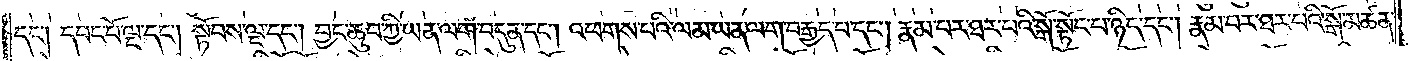དང༌། དབང་པོ་ལྔ་དང༌། སྟོབས་ལྔ་དང༌། བྱང་ཆུབ་ཀྱི་ཡན་ལག་བདུན་དང༌། འཕགས་པའི་ལམ་ཡན་ལག་བརྒྱད་པ་དང༌། རྣམ་པར་ཐར་པའི་སྒོ་སྟོང་པ་ཉིད་དང༌། རྣམ་པར་ཐར་པའི་སྒོ་མཚན་
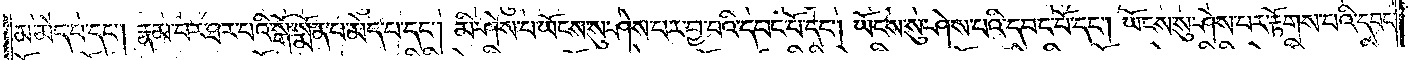མ་མེད་པ་དང༌། རྣམ་པར་ཐར་པའི་སྒོ་སྨོན་པ་མེད་པ་དང༌། མི་ཤེས་པ་ཡོངས་སུ་ཤེས་པར་བྱ་བའི་དབང་པོ་དང༌། ཡོངས་སུ་ཤེས་པའི་དབང་པོ་དང༌། ཡོངས་སུ་ཤེས་པར་རྟོགས་པའི་དབང་
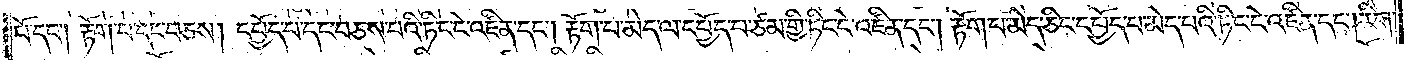པོ་དང༌། རྟོག་པ་དང་བཅས། དཔྱོད་པ་དང་བཅས་པའི་ཏིང་ངེ་འཛིན་དང༌། རྟོག་པ་མེད་ལ་དཔྱོད་པ་ཙམ་གྱི་ཏིང་ངེ་འཛིན་དང༌། རྟོག་པ་མེད་ཅིང་དཔྱོད་པ་མེད་པའི་ཏིང་ངེ་འཛིན་དང༌། རིག་
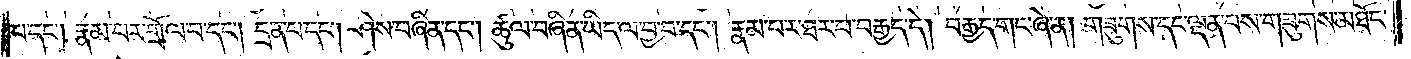པ་དང༌། རྣམ་པར་གྲོལ་བ་དང༌། དྲན་པ་དང༌། ཤེས་བཞིན་དང༌། ཚུལ་བཞིན་ཡིད་ལ་བྱ་བ་དང༌། རྣམ་པར་ཐར་པ་བརྒྱད་དེ། བརྒྱད་གང་ཞེ་ན། གཟུགས་དང་ལྡན་པས་གཟུགས་མཐོང་
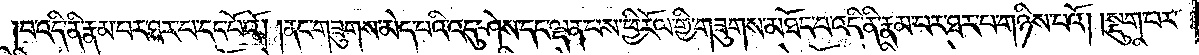བ་འདི་ནི་རྣམ་པར་ཐར་པ་དང་པོའོ། །ནང་གཟུགས་མེད་པའི་འདུ་ཤེས་དང་ལྡན་པས་ཕྱི་རོལ་གྱི་གཟུགས་མཐོང་བ་འདི་ནི་རྣམ་པར་ཐར་པ་གཉིས་པའོ། །སྡུག་པར་
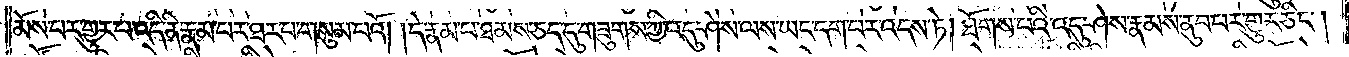མོས་པར་གྱུར་པ་འདི་ནི་རྣམ་པར་ཐར་པ་གསུམ་པའོ། །དེ་རྣམ་པ་ཐམས་ཅད་དུ་གཟུགས་ཀྱི་འདུ་ཤེས་ཀྱང་ཡང་དག་པར་འདས་ཏེ། ཐོགས་པའི་འདུ་ཤེས་རྣམས་ནུབ་པར་གྱུར་ཅིང༌།
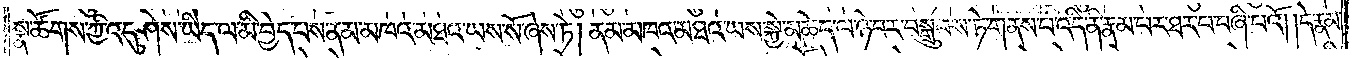སྣ་ཚོགས་ཀྱི་འདུ་ཤེས་ཡིད་ལ་མི་བྱེད་པས་ནམ་མཁའ་མཐའ་ཡས་སོ་ཞེས་ཏེ། ནམ་མཁའ་མཐའ་ཡས་སྐྱེ་མཆེད་ལ་ཉེ་བར་བསྒྲུབས་ཏེ་གནས་པ་འདི་ནི་རྣམ་པར་ཐར་པ་བཞི་པའོ། །དེ་རྣམ་
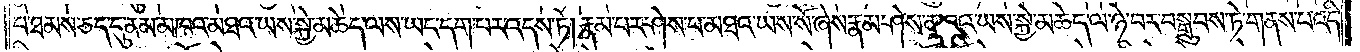པ་ཐམས་ཅད་དུ་ནམ་མཁའ་མཐའ་ཡས་སྐྱེ་མཆེད་ལས་ཡང་དག་པར་འདས་ཏེ། རྣམ་པར་ཤེས་པ་མཐའ་ཡས་སོ་ཞེས་རྣམ་ཤེས་མཐའ་ཡས་སྐྱེ་མཆེད་ལ་ཉེ་བར་བསྒྲུབས་ཏེ་གནས་པ་འདི་
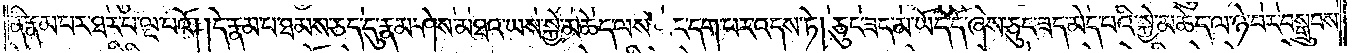ནི་རྣམ་པར་ཐར་པ་ལྔ་པའོ། །དེ་རྣམ་པ་ཐམས་ཅད་དུ་རྣམ་ཤེས་མཐའ་ཡས་སྐྱེ་མཆེད་ལས་ཡང་དག་པར་འདས་ཏེ། ཅུང་ཟད་མ་ཡོད་དོ་ཞེས་ཅུང་ཟད་མེད་པའི་སྐྱེ་མཆེད་ལ་ཉེ་བར་བསྒྲུབས་
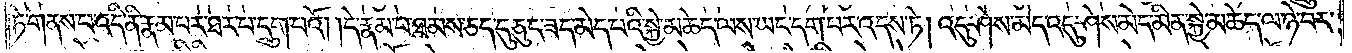ཏེ་གནས་པ་འདི་ནི་རྣམ་པར་ཐར་པ་དྲུག་པའོ། །དེ་རྣམ་པ་ཐམས་ཅད་དུ་ཅུང་ཟད་མེད་པའི་སྐྱེ་མཆེད་ལས་ཡང་དག་པར་འདས་ཏེ། འདུ་ཤེས་མེད་འདུ་ཤེས་མེད་མིན་སྐྱེ་མཆེད་ལ་ཉེ་བར་
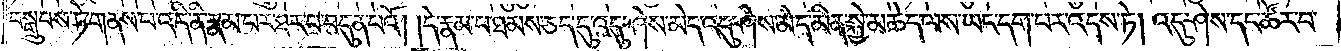བསྒྲུབས་ཏེ་གནས་པ་འདི་ནི་རྣམ་པར་ཐར་པ་བདུན་པའོ། །དེ་རྣམ་པ་ཐམས་ཅད་འདུ་ཤེས་མེད་འདུ་ཤེས་མེད་མིན་སྐྱེ་མཆེད་ལས་ཡང་དག་པར་འདས་ཏེ། འདུ་ཤེས་དང་ཚོར་བ་
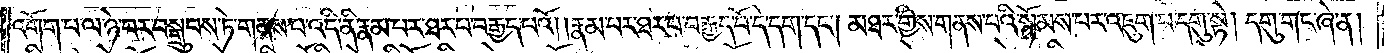འགོག་པ་ལ་ཉེ་བར་བསྒྲུབས་ཏེ་གནས་པ་འདི་ནི་རྣམ་པར་ཐར་པ་བརྒྱད་པའོ། །རྣམ་པར་ཐར་པ་བརྒྱད་པོ་དེ་དག་དང༌། མཐར་གྱིས་གནས་པའི་སྙོམས་པར་འཇུག་པ་དགུ་སྟེ། དགུ་གང་ཞེ་ན།
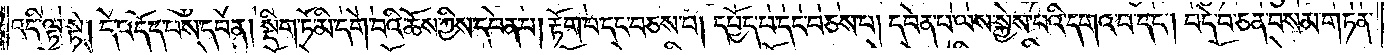འདི་ལྟ་སྟེ། དེ་འདོད་པས་དབེན། སྡིག་ཏོ་མི་དགེ་བའི་ཆོས་ཀྱིས་དབེན་པ། རྟོག་པ་དང་བཅས་པ། དཔྱོད་པ་དང་བཅས་པ། དབེན་པ་ལས་སྐྱེས་པའི་དགའ་བ་དང༌། བདེ་བ་ཅན་བསམ་གཏན་
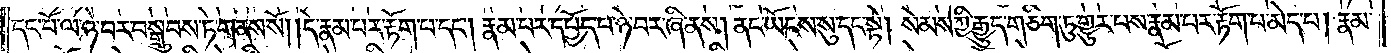དང་པོ་ལ་ཉེ་བར་བསྒྲུབས་ཏེ་གནས་སོ། །དེ་རྣམ་པར་རྟོག་པ་དང༌། རྣམ་པར་དཔྱོད་པ་ཉེ་བར་ཞི་ནས། ནང་ཡོངས་སུ་དང་སྟེ། སེམས་ཀྱི་རྒྱུད་གཅིག་ཏུ་གྱུར་པས་རྣམ་པར་རྟོག་པ་མེད་པ། རྣམ་
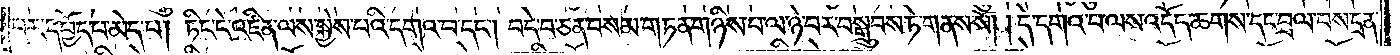པར་དཔྱོད་པ་མེད་པ། ཏིང་ངེ་འཛིན་ལས་སྐྱེས་པའི་དགའ་བ་དང༌། བདེ་བ་ཅན་བསམ་གཏན་གཉིས་པ་ལ་ཉེ་བར་བསྒྲུབས་ཏེ་གནས་སོ། །དེ་དགའ་བ་ལས་འདོད་ཆགས་དང་བྲལ་བས་དྲན་
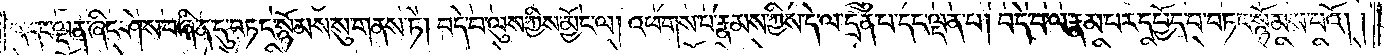པ་དང་ལྡན་ཞིང་ཤེས་བཞིན་དུ་བཏང་སྙོམས་སུ་གནས་ཏེ། བདེ་བ་ལུས་ཀྱིས་མྱོང་ལ། འཕགས་པ་རྣམས་ཀྱིས་དེ་ལ་དྲན་པ་དང་ལྡན་པ། བདེ་བ་ལ་རྣམ་པར་དཔྱོད་པ་བཏང་སྙོམས་པའོ། །
